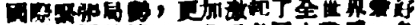國際緊張局勢，更加及其了全世界愛好
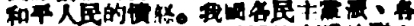和平人民的憤怒。我國各民主黨派、各
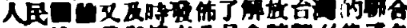人民團體又及時發佈了解放台灣的聯合
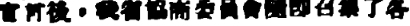宣言後，我省協商委員會隨即召集了各
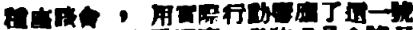種座談會 ，用實際行動響應了這一號
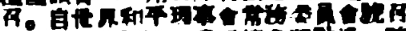召。自世界和平理事會常務委員會號召
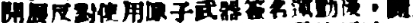開展反對使用原子武器簽名運動後，隨
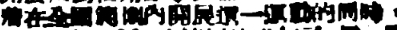這在全國範圍內開展這一運動的同時，
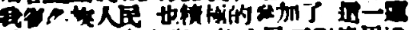我省各族人民 也積極的參加了 這一運
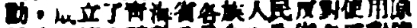動，成立了靑海省各族人民反對使用原
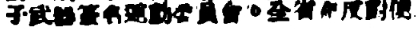子武器簽名運動委員會。全省在反對使
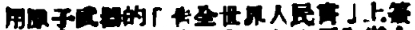用原子武器的「告全世界人民書」上簽
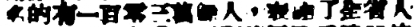名的有一百零三萬餘人，表達了全省人
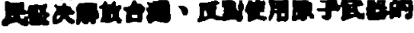民堅決解放台灣、反對使用原子武器的
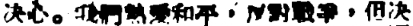決心。我們熱愛和平，反對戰爭，但決
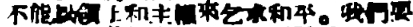不能以領土和主權來乞求和平。我們要
